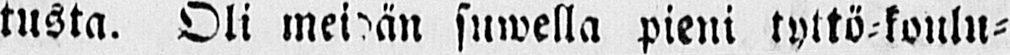tusta. Oli meidän suwella pieni tyttö-koulu-
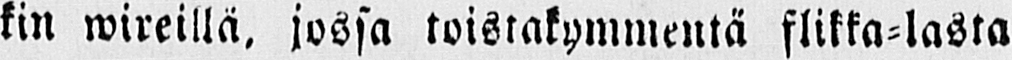kin wireillä, jossa toistakymmentä flikka-lasta
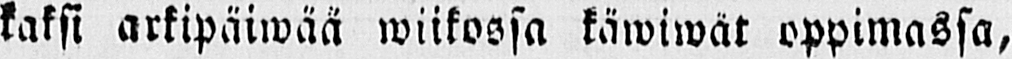kaksi arkipäiwää wiikossa käwiwät oppimassa,
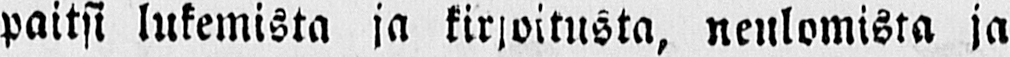paitsi lukemista ja kirjoitusta, neulomista ja
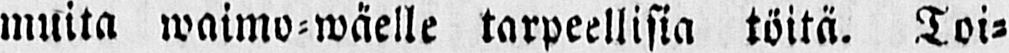muita waimo-wäelle tarpeellisia töitä. Toi-
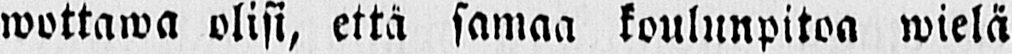wottawa olisi, että samaa koulunpitoa wielä
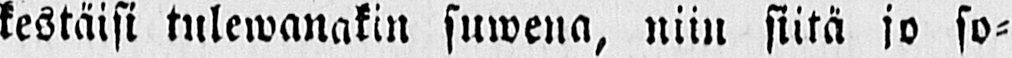kestäisi tulewanakin suwena, niin siitä jo so-
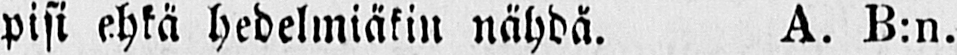pisi ehkä hedelmiäkin nähdä. -A. B:n.
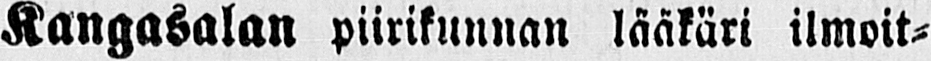Kangasalan piirikunnan lääkäri ilmoit-
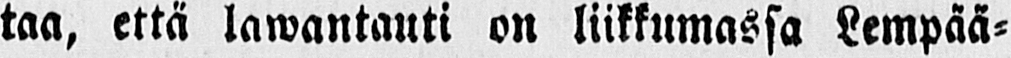taa, että lawantauti on liikkumassa Lempää-
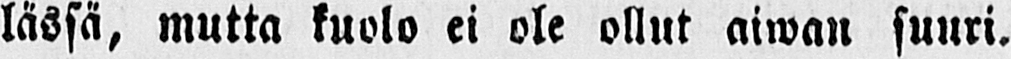lässä, mutta kuolo ei ole ollut aiwan suuri.
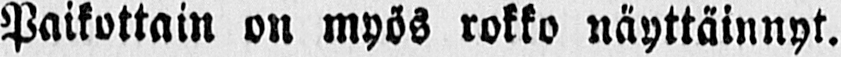Paikottain on myös rokko näyttäinnyt.
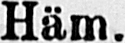Häm.
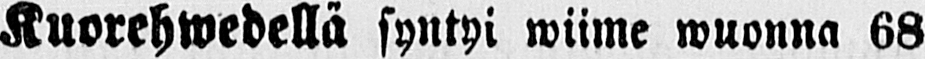Kuorehwedellä syntyi wiime wuonna 68
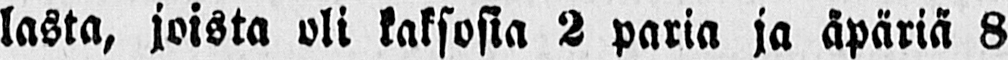lasta, joista oli kaksosia 2 paria ja äpäriä 8
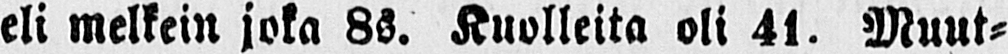eli melkein joka 8s. Kuolleita oli 41. Muut-
